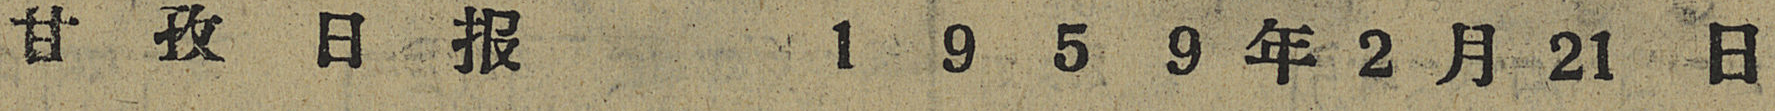甘 孜 日 报 1 9 5 9 年 2 月 21 日
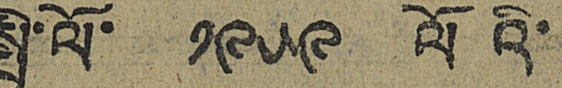སྤྱི་ལོ་ ༡༩༥༩ ལོའི་
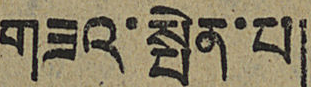གཟའ་སྤེན་པ།
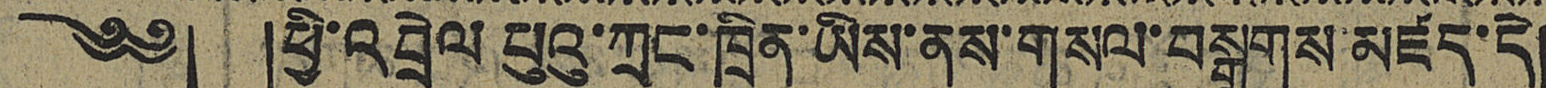༄༅། །ཕྱི་འབྲེལ པུའུ་ཀྲང་ཁྲིན་ཡིས་ནས་གསལ་བསྒྲགས་མཛད་དེ།
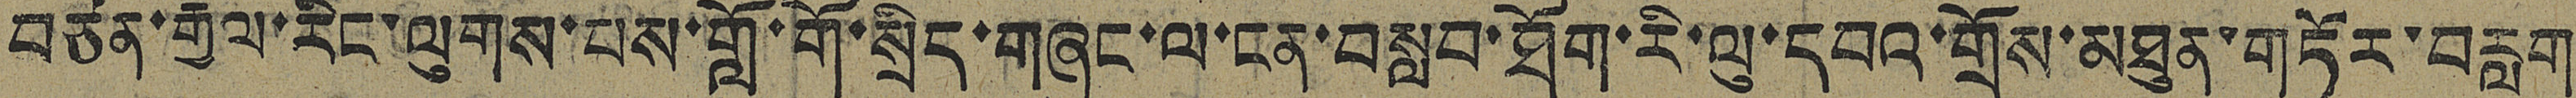བཙན་རྒྱལ་རིང་ལུགས་པས་གློ་གོ་སྲིད་གཞུང་ལ་ངན་བསླབ་ཐོག་རི་ལུ་དབའ་གྲོས་མཐུན་གཏོར་བརླག
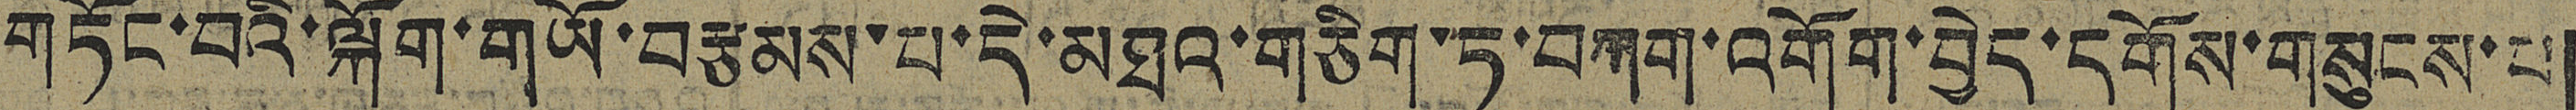གཏོང་བའི་ལྐོག་གཡོ་བརྩམས་པ་དེ་མཐའ་གཅིག་ཏུ་བཀག་འགོག་བྱེད་དགོས་གསུངས་པ།
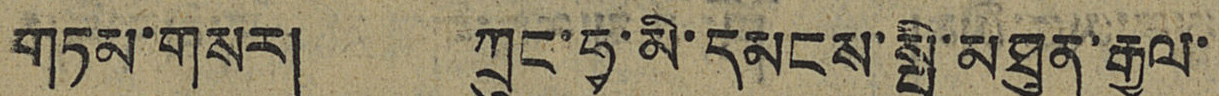གཏམ་གསར། ཀྲུང་ཧྭ་མི་དམངས་སྤྱི་མཐུན་རྒྱལ་
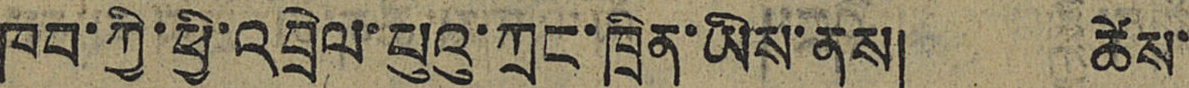ཁབ་ཀྱི་ཕྱི་འབྲེལ་པུའུ་ཀྲང་ཁྲིན་ཡིས་ནས། ཚེས་
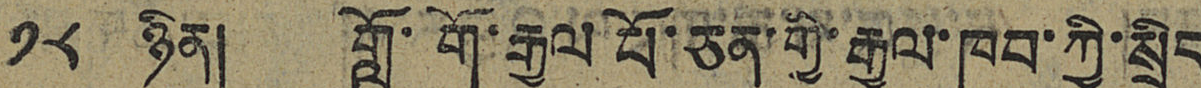༡༨ ཉིན། གློ་གོ་རྒྱལ པོ་ཅན་གྱི་རྒྱལ་ཁབ་ཀྱི་སྲིད
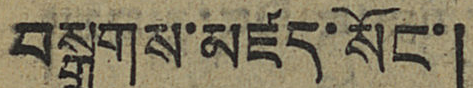བསྒྲགས་མཛད་སོང་།
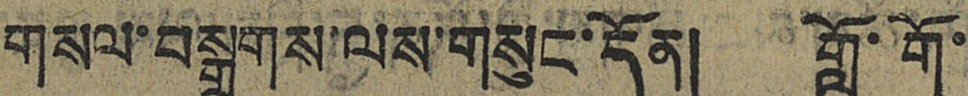གསལ་བསྒྲགས་ལས་གསུང་དོན། གློ་གོ་
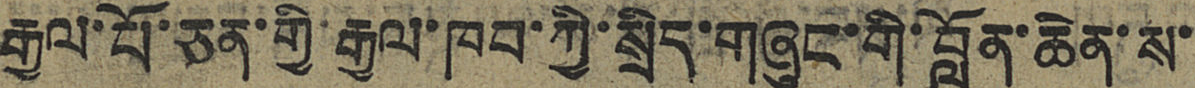རྒྱལ་པོ་ཅན་གྱི་རྒྱལ་ཁབ་ཀྱི་སྲིད་གཞུང་གི་བློན་ཆེན་ས་
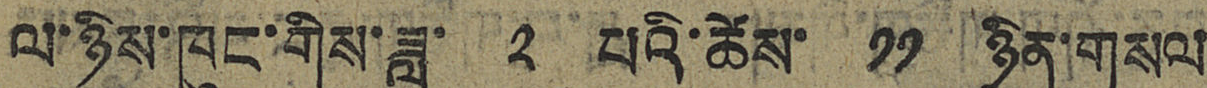ལ་ཉིས་ཁུང་གིས་ཟླ་ ༢ པའི་ཚེས་ ༡༡ ཉིག་གསལ
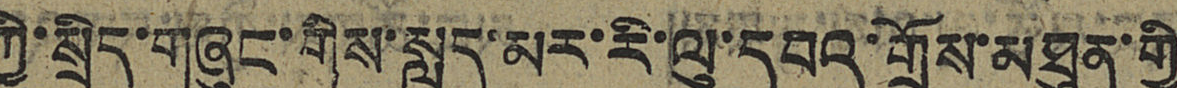ཀྱི་སྲིད་གཞུང་གིས་སླད་མར་རི་ལུ་དབའ་གྲོས་མཐུན་གྱི
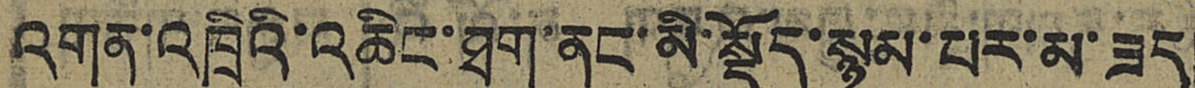འགན་འཁྲིའི་འཆིང་ཐག་ནང་མི་སྡོད་སྙམ་པར་མ་ཟད།
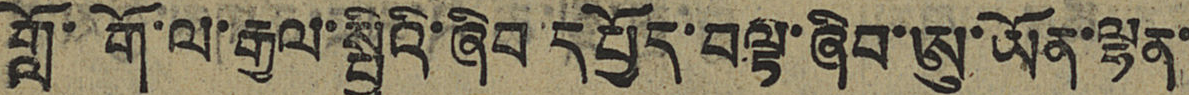གློ་གོ་ལ་རྒྱལ་སྤྱིའི་ཞིབ་དཔྱོད་བལྟ་ཞིབ་ཨུ་ཡོན་ལྷན་
